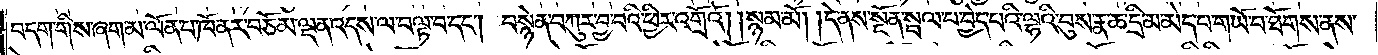བདག་གིས་ཞག་མ་ལོན་པ་ཁོ་ནར་བཅོམ་ལྡན་འདས་ལ་བལྟ་བ་དང༌། བསྙེན་བཀུར་བྱ་བའི་ཕྱིར་འགྲོའོ། །སྙམ་མོ། །དེ་ནས་སྔོན་སྦལ་པ་བྱེད་པའི་ལྷའི་བུས་རྣ་ཆ་དྲི་མ་མེད་པ་གཡོ་བ་ཐོགས་ནས་
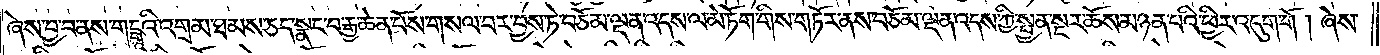ཞེས་བྱ་བ་ནས་གངྒཱའི་འགྲམ་ཐམས་ཅད་སྣང་བ་རྒྱ་ཆེན་པོས་གསལ་བར་བྱས་ཏེ་བཅོམ་ལྡན་འདས་ལ་མེ་ཏོག་གིས་གཏོར་ནས་བཅོམ་ལྡན་འདས་ཀྱི་སྤྱན་སྔར་ཆོས་མཉན་པའི་ཕྱིར་འདུག་གོ། ཞེས་
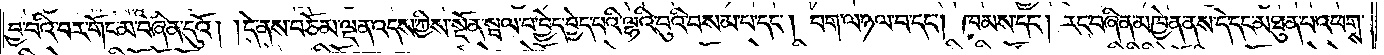བྱ་བའི་བར་གོང་མ་བཞིན་དུའོ། །དེ་ནས་བཅོམ་ལྡན་འདས་ཀྱིས་སྔོན་སྦལ་པ་བྱེད་བྱེད་པའི་ལྷའི་བུའི་བསམ་པ་དང༌། བག་ལ་ཉལ་བ་དང༌། ཁམས་དང༌། རང་བཞིན་མཁྱེན་ནས་དེ་དང་མཐུན་པ་འཕགས་
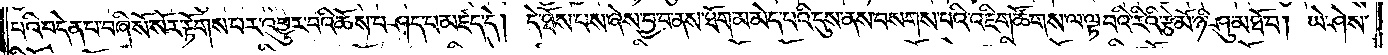པའི་བདེན་པ་བཞི་སོ་སོར་རྟོགས་པར་འགྱུར་བའི་ཆོས་བཤད་པ་མཛད་དེ། དེ་ཐོས་པས་ཞེས་བྱ་བ་ནས་ཐོག་མ་མེད་པའི་དུས་ནས་བསགས་པའི་འཇིག་ཚོགས་ལ་ལྟ་བའི་རིའི་རྩེ་མོ་ཉི་ཤུ་མཐོ་བ། ཡེ་ཤེས་
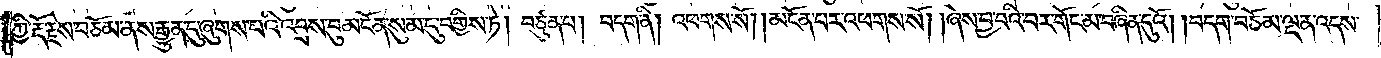ཀྱི་རྡོ་རྗེས་བཅོམ་ནས་རྒྱུན་དུ་ཞུགས་པའི་འབྲས་བུ་མངོན་སུམ་དུ་བགྱིས་ཏེ། བཙུན་པ། བདག་ནི། འཕགས་སོ། །མངོན་པར་འཕགས་སོ། །ཞེས་བྱ་བའི་བར་གོང་མ་བཞིན་དུའོ། །བདག་བཅོམ་ལྡན་འདས་
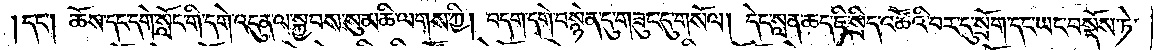དང༌། ཆོས་དང་དགེ་སློང་གི་དགེ་འདུན་ལ་སྐྱབས་སུ་མཆི་ལགས་ཀྱི། བདག་དགེ་བསྙེན་དུ་གཟུང་དུ་གསོལ། དེང་སླན་ཆད་ཇི་སྲིད་འཚོའི་བར་དུ་སྲོག་དང་ཡང་བསྔོས་ཏེ་
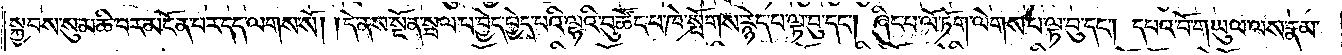སྐྱབས་སུ་མཆི་བར་མངོན་པར་དད་ལགས་སོ། །དེ་ནས་སྔོན་སྦལ་པ་བྱེད་བྱེད་པའི་ལྷའི་བུ་ཚོང་བ་ཁེ་སྤོགས་རྙེད་པ་ལྟ་བུ་དང༌། ཞིང་པ་ལོ་ཏོག་ལེགས་པ་ལྟ་བུ་དང༌། དཔའ་བོ་གཡུལ་ལས་རྣམ་
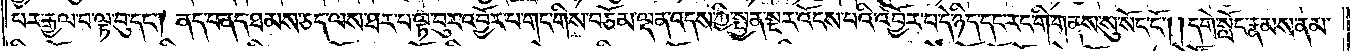པར་རྒྱལ་བ་ལྟ་བུ་དང༌། ནད་པ་ནད་ཐམས་ཅད་ལས་ཐར་པ་ལྟ་བུར་འབྱོར་པ་གང་གིས་བཅོམ་ལྡན་འདས་ཀྱི་སྤྱན་སྔར་འོངས་པའི་འབྱོར་པ་དེ་ཉིད་དང་རང་གི་གནས་སུ་སོང་ངོ༌། །དགེ་སློང་རྣམས་ནམ་
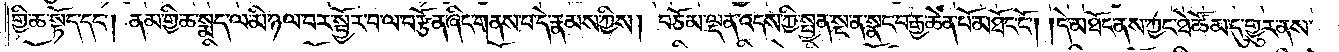གྱི་ཆ་སྟོད་དང༌། ནམ་གྱི་ཆ་སྨད་ལ་མི་ཉལ་བར་སྦྱོར་བ་ལ་བརྩོན་ཞིང་གནས་པ་དེ་རྣམས་ཀྱིས། བཅོམ་ལྡན་འདས་ཀྱི་སྤྱན་སྔ་ན་སྣང་བ་རྒྱ་ཆེན་པོ་མཐོང་ངོ༌། །དེ་མཐོང་ནས་ཀྱང་ཐེ་ཚོམ་དུ་གྱུར་ནས་
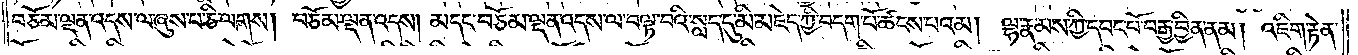བཅོམ་ལྡན་འདས་ལ་ཞུས་པ་ཅི་ལགས། བཅོམ་ལྡན་འདས། མདང་བཅོམ་ལྡན་འདས་ལ་བལྟ་བའི་སླད་དུ་མི་མཇེད་ཀྱི་བདག་པོ་ཚངས་པའམ། ལྷ་རྣམས་ཀྱི་དབང་པོ་བརྒྱ་བྱིན་ནམ། འཇིག་རྟེན་
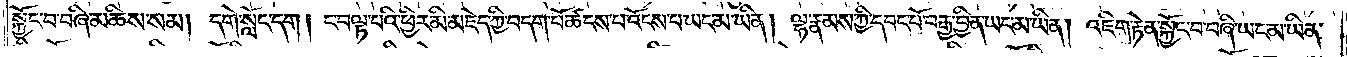སྐྱོང་བ་བཞི་མཆིས་སམ། དགེ་སློང་དག། ང་བལྟ་བའི་ཕྱིར་མི་མཇེད་ཀྱི་བདག་པོ་ཚངས་པ་འོངས་པ་ཡང་མ་ཡིན། ལྷ་རྣམས་ཀྱི་དབང་པོ་བརྒྱ་བྱིན་ཡང་མ་ཡིན། འཇིག་རྟེན་སྐྱོང་བ་བཞི་ཡང་མ་ཡིན་
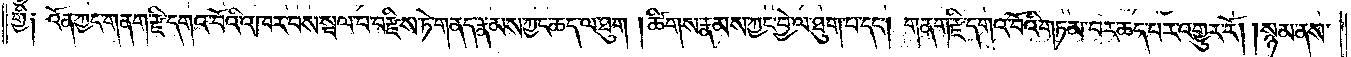གྱི༑ འོན་ཀྱང་གནག་རྫི་དགའ་བོའི་འཁར་བས་སྦལ་བ་བརྫིས་ཏེ་གནད་རྣམས་ཀྱང་ཆད་ལ་ཐུག །ཚིགས་རྣམས་ཀྱང་བྱེ་ལ་ཐུག་པ་དང༌། གནག་རྫི་དགའ་བོའི་གཏམ་བར་ཆད་པར་འགྱུར་རོ། །སྙམ་ནས་
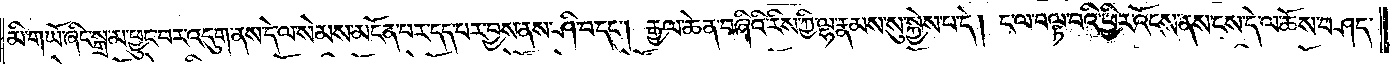མི་གཡོ་ཞིང་སྒྲ་མ་ཕྱུང་བར་འདུག་ནས་དེ་ལ་སེམས་མངོན་པར་དད་པར་བྱས་ནས་ཤི་བ་དང༌། རྒྱལ་ཆེན་བཞིའི་རིས་ཀྱི་ལྷ་རྣམས་སུ་སྐྱེས་པ་དེ། ང་ལ་བལྟ་བའི་ཕྱིར་འོངས་ནས་ངས་དེ་ལ་ཆོས་བཤད་
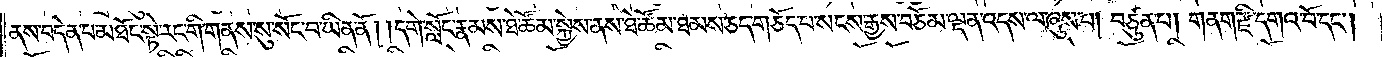ནས་བདེན་པ་མཐོང་སྟེ་རང་གི་གནས་སུ་སོང་བ་ཡིན་ནོ། །དགེ་སློང་རྣམས་ཐེ་ཚོམ་སྐྱེས་ནས་ཐེ་ཚོམ་ཐམས་ཅད་གཅོད་པ་སངས་རྒྱས་བཅོམ་ལྡན་འདས་ལ་ཞུས་པ། བཙུན་པ། གནག་རྫི་དགའ་བོ་དང༌།
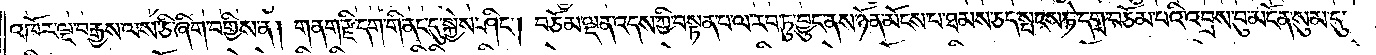འཁོར་ལྔ་བརྒྱས་ལས་ཅི་ཞིག་བགྱིས་ན། གནག་རྫི་དག་གི་ནང་དུ་སྐྱེས་ཤིང༌། བཅོམ་ལྡན་འདས་ཀྱི་བསྟན་པ་ལ་རབ་ཏུ་བྱུང་ནས་ཉོན་མོངས་པ་ཐམས་ཅད་སྤངས་ཏེ་དགྲ་བཅོམ་པའི་འབྲས་བུ་མངོན་སུམ་དུ་
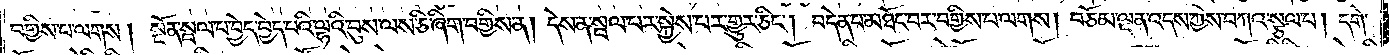བགྱིས་པ་ལགས། སྔོན་སྦལ་པ་བྱེད་བྱེད་པའི་ལྷའི་བུས་ལས་ཅི་ཞིག་བགྱིས་ན། དེས་ན་སྦལ་པར་སྐྱེས་པར་གྱུར་ཅིང༌། བདེན་པ་མཐོང་བར་བགྱིས་པ་ལགས། བཅོམ་ལྡན་འདས་ཀྱིས་བཀའ་སྩལ་པ། དགེ་
